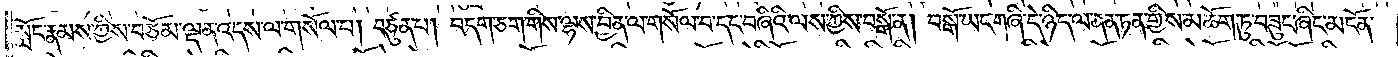སློང་རྣམས་ཀྱིས་བཅོམ་ལྡན་འདས་ལ་གསོལ་པ། བཙུན་པ། བདག་ཅག་གིས་ལྷས་བྱིན་ལ་གསོལ་བ་དང་བཞིའི་ལས་ཀྱིས་བསྒོ་ན། བསྒོ་ཡང་གཞི་དེ་ཉིད་ལ་ནན་ཏན་གྱིས་མཆོག་ཏུ་བཟུང་ཞིང་མངོན་
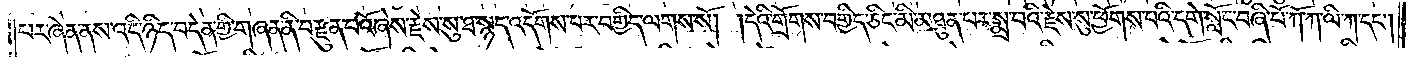པར་ཞེན་ནས་འདི་ཉིད་བདེན་གྱི་གཞན་ནི་བརྫུན་པའོ་ཞེས་རྗེས་སུ་ཐ་སྙད་འདོགས་པར་བགྱིད་ལགས་སོ། །དེའི་གྲོགས་བགྱིད་ཅིང་མི་མཐུན་པར་སྨྲ་བའི་རྗེས་སུ་ཕྱོགས་པའི་དགེ་སློང་བཞི་པོ་ཀོ་ཀ་ལི་ཀ་དང༌།
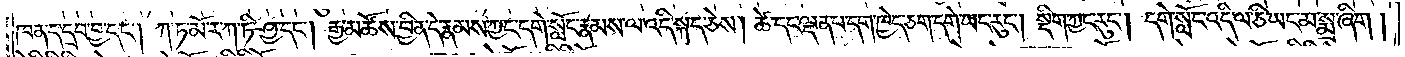ཁན་ད་དྲབ་བྱ་དང༌། ཀ་ཏ་མོ་ར་ཀ་ཏི་ཤྱ་དང༌། རྒྱ་མཚོས་བྱིན་དེ་རྣམས་ཀྱང་དགེ་སློང་རྣམས་ལ་འདི་སྐད་ཅེས། ཚེ་དང་ལྡན་པ་དག་ཁྱེད་ཅག་དགེ་ཡང་རུང༌། སྡིག་ཀྱང་རུང༌། དགེ་སློང་འདི་ལ་ཅི་ཡང་མ་སྨྲ་ཞིག །
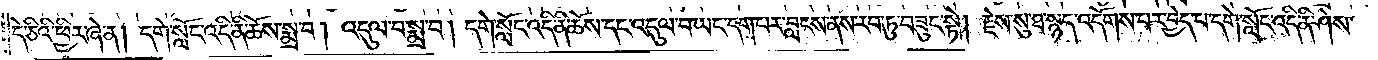དེ་ཅིའི་ཕྱིར་ཞེ་ན། དགེ་སློང་འདི་ནི་ཆོས་སྨྲ་བ། འདུལ་བ་སྨྲ་བ། དགེ་སློང་འདི་ནི་ཆོས་དང་འདུལ་བ་ཡང་དག་པར་བླངས་ནས་རབ་ཏུ་བཟུང་སྟེ། རྗེས་སུ་ཐ་སྙད་འདོགས་པར་བྱེད་པ་དགེ་སློང་འདི་ནི་ཤེས་
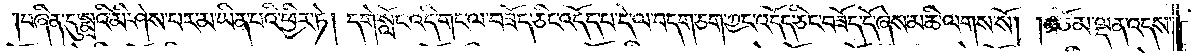བཞིན་དུ་སྨྲའི་མི་ཤེས་པར་མ་ཡིན་པའི་ཕྱིར་ཏེ། དགེ་སློང་འདི་གང་ལ་བཟོད་ཅིང་འདོད་པ་དེ་ལ་བདག་ཅག་ཀྱང་འདོད་ཅིང་བཟོད་དོ་ཞེས་མཆི་ལགས་སོ། །བཅོམ་ལྡན་འདས་
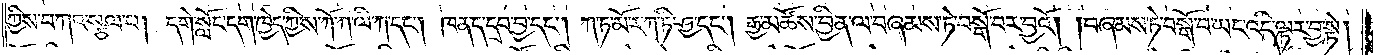ཀྱིས་བཀའ་སྩལ་པ། དགེ་སློང་དག་ཁྱེད་ཀྱིས་ཀོ་ཀ་ལི་ཀ་དང༌། ཁན་ད་དྲབ་བྱ་དང༌། ཀ་ཏ་མོ་ར་ཀ་ཏི་ཤྱ་དང༌། རྒྱ་མཚོས་བྱིན་ལ་བཞམས་ཏེ་བསྒོ་བར་བྱའོ། །བཞམས་ཏེ་བསྒོ་བ་ཡང་འདི་ལྟར་བྱ་སྟེ།
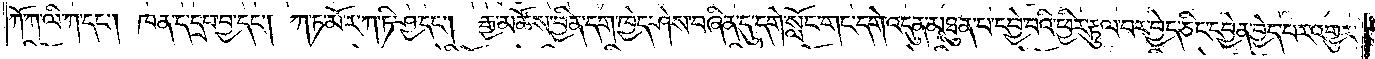ཀོ་ཀ་ལི་ཀ་དང༌། ཁན་ད་དྲབ་བྱ་དང༌། ཀ་ཏ་མོ་ར་ཀ་ཏི་ཤྱ་དང༌། རྒྱ་མཚོས་བྱིན་དག་ཁྱེད་ཤེས་བཞིན་དུ་དགེ་སློང་གང་དགེ་འདུན་མཐུན་པ་དབྱེ་བའི་ཕྱིར་རྟུལ་བར་བྱེད་ཅིང་དབྱེན་བྱེད་པར་འགྱུར་
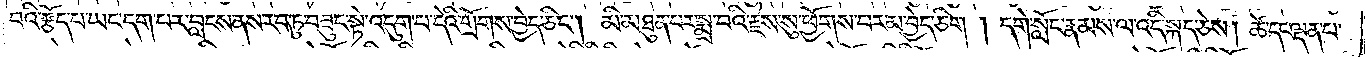བའི་རྩོད་པ་ཡང་དག་པར་བླངས་ནས་རབ་ཏུ་བཟུང་སྟེ་འདུག་པ་དེའི་གྲོགས་བྱེད་ཅིང༌། མི་མཐུན་པར་སྨྲ་བའི་རྗེས་སུ་ཕྱོགས་པར་མ་བྱེད་ཅིག །དགེ་སློང་རྣམས་ལ་འདི་སྐད་ཅེས། ཚེ་དང་ལྡན་པ་
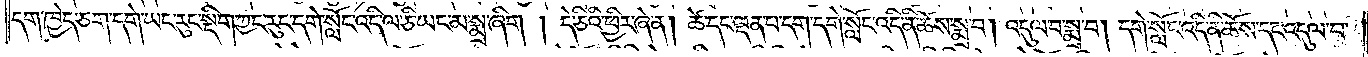དག་ཁྱེད་ཅག་དགེ་ཡང་རུང་སྡིག་ཀྱང་རུང་དགེ་སློང་འདི་ལ་ཅི་ཡང་མ་སྨྲ་ཞིག །དེ་ཅིའི་ཕྱིར་ཞེ་ན། ཚེ་དང་ལྡན་པ་དག་དགེ་སློང་འདི་ནི་ཆོས་སྨྲ་བ། འདུལ་བ་སྨྲ་བ། དགེ་སློང་འདི་ནི་ཆོས་དང་འདུལ་བ་
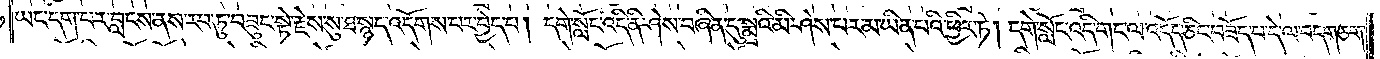ཡང་དག་པར་བླངས་ནས་རབ་ཏུ་བཟུང་སྟེ་རྗེས་སུ་ཐ་སྙད་འདོགས་པར་བྱེད་པ། དགེ་སློང་འདི་ནི་ཤེས་བཞིན་དུ་སྨྲའི་མེ་ཤེས་པར་མ་ཡིན་པའི་ཕྱིར་ཏེ། དགེ་སློང་འདི་གང་ལ་འདོད་ཅིང་བཟོད་པ་དེ་ལ་བདག་ཅག་
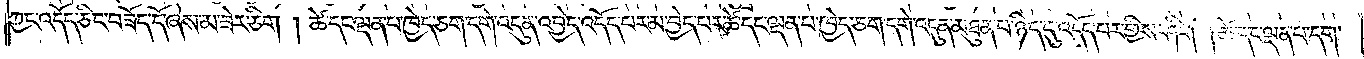ཀྱང་འདོད་ཅིང་བཟོད་དོ་ཞེས་མ་ཟེར་ཅིག །ཚེ་དང་ལྡན་པ་ཁྱེད་ཅག་དགེ་འདུན་འབྱེད་འདོད་པར་མ་བྱེད་པར་ཚེ་དང་ལྡན་པ་ཁྱེད་ཅག་དགེ་འདུན་མཐུན་པ་ཉིད་དུ་འདོད་པར་གྱིས་ཤིག །ཚེ་དང་ལྡན་པ་དག་
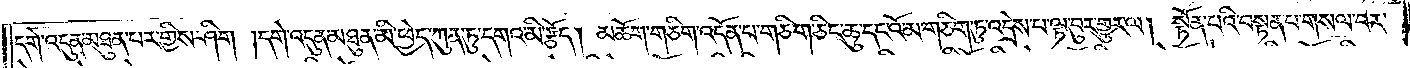དགེ་འདུན་མཐུན་པར་གྱིས་ཤིག །དགེ་འདུན་མཐུན་མི་ཕྱེད་ཀུན་ཏུ་དགའ་མི་རྩོད། མཆོག་གཅིག་འདོན་པ་གཅིག་ཅིང་ཆུ་དང་འོ་མ་གཅིག་ཏུ་འདྲེས་པ་ལྟ་བུར་གྱུར་ལ། སྟོན་པའི་བསྟན་པ་གསལ་བར་
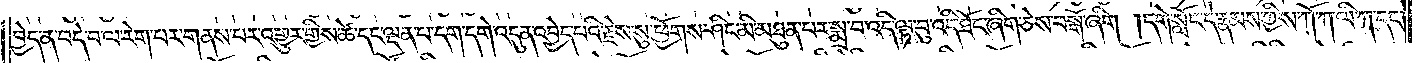བྱེད་ན་བདེ་བ་ལ་རེག་པར་གནས་པར་འགྱུར་གྱིས་ཚེ་དང་ལྡན་པ་དག་དགེ་འདུན་འབྱེད་པའི་རྗེས་སུ་ཕྱོགས་ཤིང་མི་མཐུན་པར་སྨྲ་བ་འདི་ལྟ་བུ་འདི་ཐོང་ཞིག་ཅེས་བསྒོ་ཞིག །དགེ་སློང་དེ་རྣམས་ཀྱིས་ཀོ་ཀ་ལི་ཀ་དང་
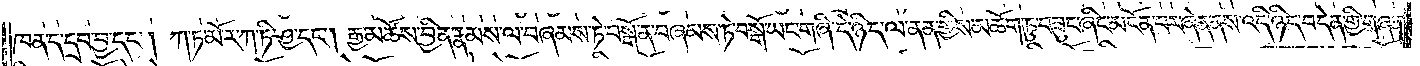ཁན་ད་དྲབ་བྱ་དང༌། ཀ་ཏ་མོ་ར་ཀ་ཏི་ཤྱ་དང༌། རྒྱ་མཚོས་བྱིན་རྣམས་ལ་བཞམས་ཏེ་བསྒོ་ན་བཞམས་ཏེ་བསྒོ་ཡང་གཞི་དེ་ཉིད་ལ་ནན་གྱིས་མཆོག་ཏུ་བཟུང་ཞིང་མངོན་པར་ཞེན་ནས་འདི་ཉིད་བདེན་གྱི་གཞན་
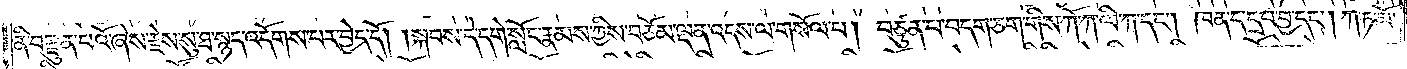ནི་བརྫུན་པའོ་ཞེས་རྗེས་སུ་ཐ་སྙད་འདོགས་པར་བྱེད་དོ། །སྐབས་དེ་དགེ་སློང་རྣམས་ཀྱིས་བཅོམ་ལྡན་འདས་ལ་གསོལ་པ། བཙུན་པ་བདག་ཅག་གིས་ཀོ་ཀ་ལི་ཀ་དང༌། ཁན་ད་དྲབ་བྱ་དང༌། ཀ་ཏ་མོ་
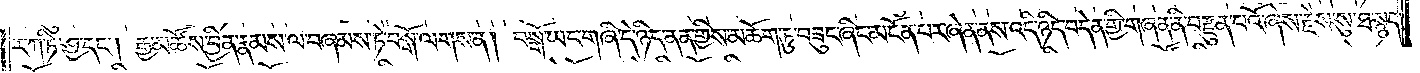ར་ཀ་ཏི་ཤྱ་དང༌། རྒྱ་མཚོས་བྱིན་རྣམས་ལ་བཞམས་ཏེ་བསྒོ་ལགས་ན། བསྒོ་ཡང་གཞི་དེ་ཉིད་ནན་གྱིས་མཆོག་ཏུ་བཟུང་ཞིང་མངོན་པར་ཞེན་ནས་འདི་ཉིད་བདེན་གྱི་གཞན་ནི་བརྫུན་པའོ་ཞེས་རྗེས་སུ་ཐ་སྙད་
